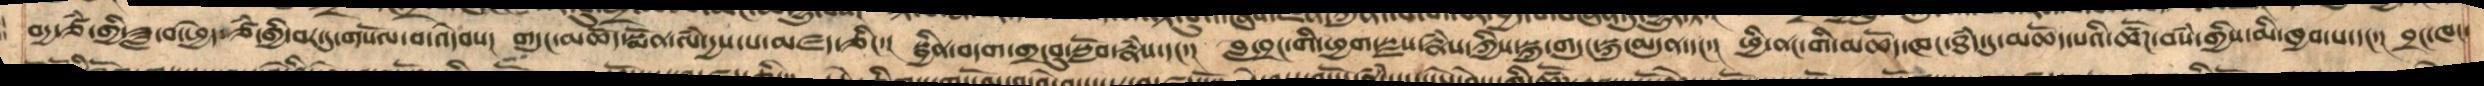བདྱ་ཙཾ་གྱི་ཟླ་བ་ཕྱེད་ཙཾ་གྱི་བར་དུ་གསོལ་བ་འདེབས།  གདུང་མཆོད་སྨོན་ལཾ་དྱས་པ་མཛད་ཅིང་། སྦྱིན་བདག་གྲ་བུ་སློབ་རྣཾས་དང་།  བླ་བྲང་གི་ཕྱག་སྫས་རྣཾས་ཀྱིས་སྐུ་གདུང་སྐུ་མདུན་དང་། ཕྱི་ནང་གི་མཆོད་ཁང་ཐཾད་དུ་མཆོད་པའི་ཚོཌ་བསཾ་གྱིས་མི་ཁྱབ་པ་དང་། བྲང་ཁང་
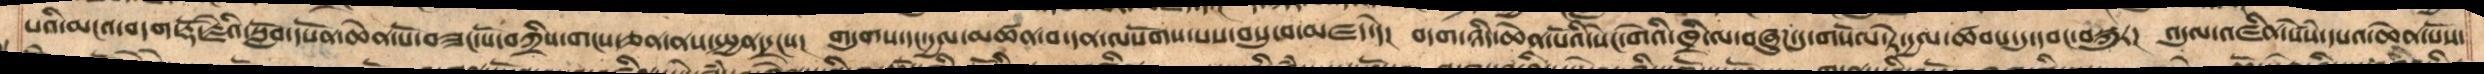པའི་མངའ་བདག་རྡོ་རྗེ་སློབ་དཔོན་ཆེན་པོ་བཟང་པོ་བཀྲིས་གངས་ཅན་ནས་སྤྱན་དྲངས།  གདུགས་དང་དྱལ་མཚན་དང་བ་དན་ལསོཌ་པས་བསུ་བ་མཛད་དེ།  བདག་ཉིད་ཆེན་པོའི་སེང་གེའི་ཁྲི་ལ་བཞུཌ་དུ་གསོལ་ཏེ་དྱལ་ཚབས་དུ་དབང་བསྐུར།  འདུལ་འཛིན་སེཾས་དཔའ་ཆེན་པོས་
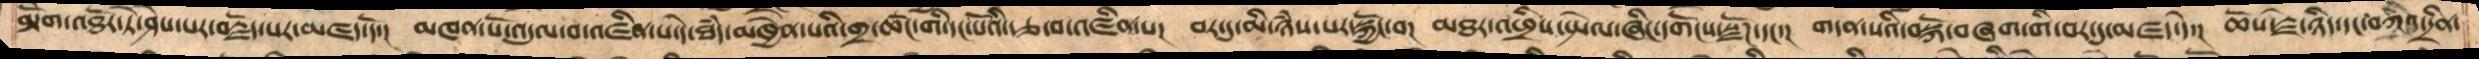མྟོེག་འཐོར་ཏེ་ཤེས་པར་བརྗོད་པར་མཛད་དོ།  མཁན་པོ་འདུལ་བ་འཛིན་པ་དེ་ཐཾད་མཁྱེན་པའི་གྲ་ཚང་གི་དང་པོའི་རྩ་བ་འཛིན་པ།  བར་དུ་མི་ཉཾས་པར་སྐྱོང་བ།  མཐར་འཕྲིས་སྤེལ་ཞིང་དགོངས་སྫོཌ་དང་།  གདན་སའི་བསྐོ་བཞག་གི་བར་དུ་མཛད་དེ།  ཆོས་རྗེ་ཉིད་དང་བཀའ་དྲིན་
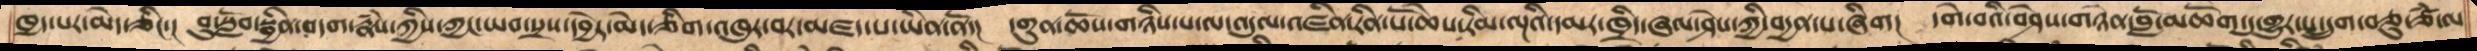ཁྱད་པར་མེད་ཅིང་།  བུ་སློབ་སྦྱིན་བདག་རྣཾས་ཀྱིས་ཀྱང་ཡབ་སྲས་དབྱེར་མེད་ཅིག་འཁུར་བར་མཛད་པ་ཡིན་ནོ།  དགུན་ཆོས་གཉིས་པ་ལ་འདུལ་འཛིན་རིན་པོ་ཆེས་རིམ་ལྔའི་དམར་ཁྲིད་ཞལ་ཤེས་ཀྱི་བདྱན་པ་ཞིག།   དགེ་བའི་བཤེས་གཉེན་བློ་མཆོག་དུ་གྱུར་པ་དྲུག་བཅུ་ཙཾ་ལ
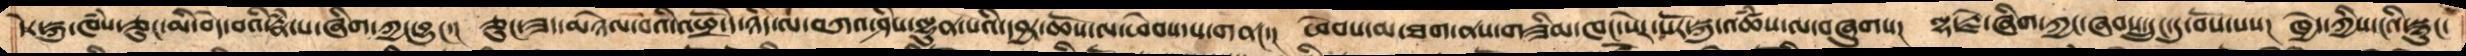དེར་སྐུ་ཁཾས་ཅུང་མི་བདེ་བའི་རྣཾ་པ་ཞིག་ཀྱང་བྱུང་།  ཅུང་ཟད་མཉེལ་བའི་འཕྲོ་དེ་ཉིད་ལ་བཀའ་ཤིས་ལྷུན་པོའི་དབྱར་ཆོས་ལ་ཕེབས་པ་གནང་།  ཕེབས་མ་ཐག་ནས་གཟིམ་ཁང་སེར་པོར་སྐུ་འཚཾས་ལ་བཞུགས།  ལྷ་རྗེ་ཞིག་ཀྱང་ཞབས་དྲུང་དུ་བོས་པས།  ཁྱེད་ཀྱིས་ངའི་སྙུང་
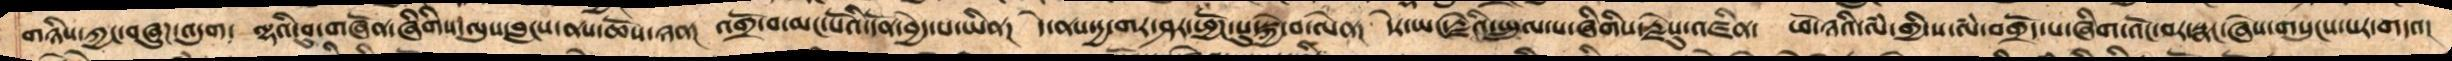གཉིས་ཀྱང་བཞུཌ་འདུག  ལྷའི་བུ་གཞོན་ཞིགིས་ལུས་བླངས་ནས་ཆོས་ཉན།  འགྲོ་བ་མང་པོའི་དོན་བྱེད་པ་ཡིན།  དེ་ནས་དྱ་གར་ཤར་ཕྱོཌ་སུ་སྐྱེ་བ་ལེན།  དེར་ཡང་རྗེའི་སྤྲུལ་པ་ཞིགིས་རྗེསུ་འཛིན།  ཕོ་ཉའི་ལཾ་གྱི་ས་ལཾ་བགྲོད་པ་ཞིག་འོང་བར་སྣང་ཞེས་གསུངས་པར་གདའ།
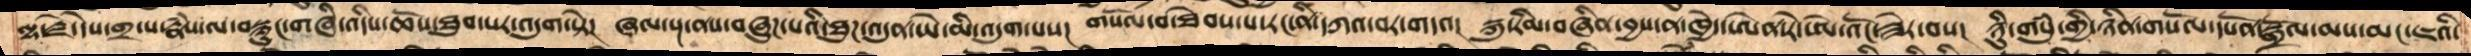ལྷ་རྗེ་དེས་གྲ་པ་རྣཾས་ལ་བསྙུང་གཞི་འདིས་ཆོས་ཐུབ་པར་འདུག་སྟེ།  ཞལ་སྔ་ནས་བཞུཌ་པའི་ཐུཌ་འདུན་ཡེ་མི་འདུག་པས།  གསོལ་བ་ཐེབས་པ་རང་ནི་དཀའ་བར་གདའ།  སྐུ་རིམ་བཞིན་བྱས་ན་ཁྱེད་ཨེན་རེ་ཨེ་འོང་ཟེར་བས།  ཉིུ་གསུཾ་ཉིན་གསོལ་དཔོན་སྒྲོལ་མས་མང་ཇའི་
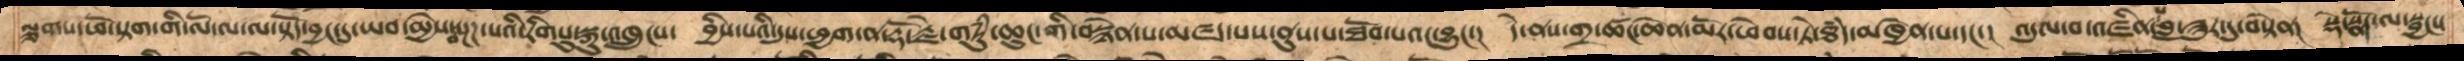ལྕགས་ཕོ་སྟག་གི་ལོ་ལ་ལ་སྟོད་བྱང་དུ་ཡབ་མྱེས་བསྔཌ་པའི་རིགསུ་སྐུ་འཁྲུངས་ བྱིས་པའི་དུས་ཕྱག་ན་རྡོ་རྗེ་གཏུཾ་ཆུང་གི་བསྙེན་པ་མཛད་པས་ནུས་པ་ཐོན་པའང་བྱུང་། དེ་ནས་གྲ་ཚང་ཆེན་མོར་ཕེབས་ཏེ་ཐཾད་མཁྱེན་པ་དང་། འདུལ་བ་འཛིན་པ་བླ་ཟུར་དུ་བསྟེན། སྡེ་སྣོད་ལ་སྦྱངས་
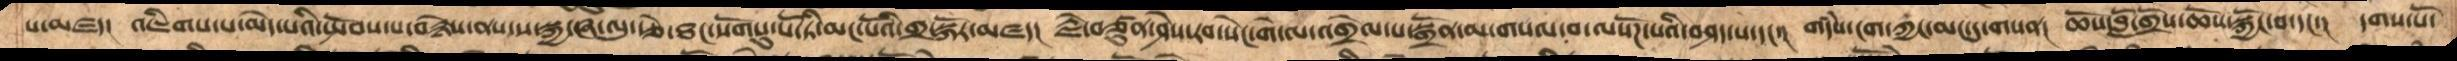པ་མཛད།  འཇིགས་པ་མེད་པའི་སྤོབས་པ་བརྙེས་ནས་ས་སྐྱ་ཞ་ལུ་རྩེ་ཐང་སོགསུ་པོ་ཏི་མང་པོའི་གྲ་སྐོར་མཛད།  རྗེ་བཙུན་ཤེས་རབ་སེང་གེ་ལ་འགྲེལ་པ་སྒྲོན་མ་གསལ་བ་ལསོཌ་པའི་བཤད་པ་དང་།  གདཾས་ངག་ཀྱང་མང་དུ་གསན།  ཆོས་བློ་གྲོས་ཆོས་སྐྱོང་བ་དང་།  དགས་པོ་
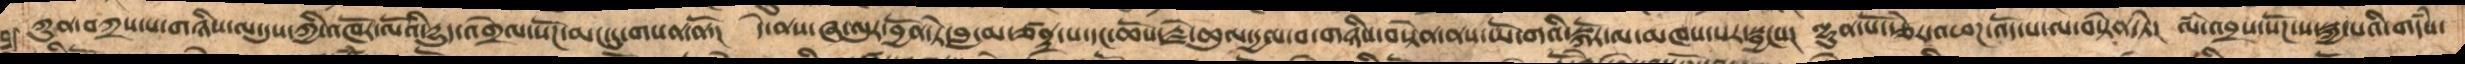ཀུན་བཀྲས་པ་གཉིས་ལ་དུས་ཀྱི་འཁོར་ལོའི་དྱུད་འགྲེལ་སོཌ་པ་མང་དུ་གསན་ནོ།  དེ་ནས་ཞ་ལུར་བྱོན་ཏེ་བླ་མ་ཙནྡྲ་པ་དང་ཆོས་རྗེ་ཚུལ་དྱལ་བ་གཉིས་བསྟེན་ནས་ཡོ་གའི་སྐོར་ལ་མཁས་པར་སྦྱངས། ལྷུན་པོ་རྩེར་འཕཌ་འོད་པ་ལ་བསྟེན་ཏེ། ལཾ་འབྲས་སོཌ་ས་སྐྱ་པའི་གདཾས
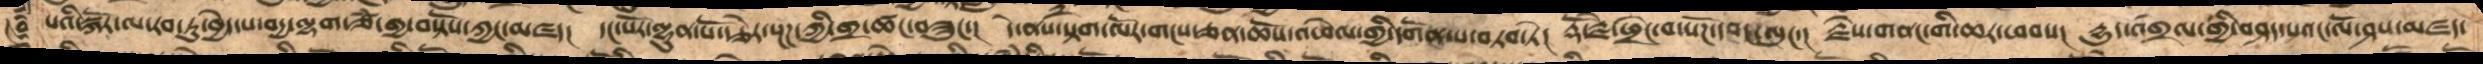པའི་སྐོར་ལ་རབ་ཏུ་བྱེད་པ་བདྱ་ལྷག་ཙཾ་གྱ་བསྟོས་ཀྱང་མཛད། དང་པོར་ལྷུན་པོ་རྩེར་སྔཌ་ཀྱི་གྲ་ཚང་བཟུང་།  དེ་ནས་སྟག་ལོར་གངས་ཅན་ཆོས་འཕེལ་གྱི་དགོན་པ་བཏབ་ཏེ།  རྡོ་རྗེ་ཕྲེང་བ་སོཌ་དབང་ལུང་། རྗེས་གནང་གི་ཆར་ཕབས། དྱུད་འགྲེལ་གྱི་བཤད་པའང་ལོ་ཤས་མཛད་
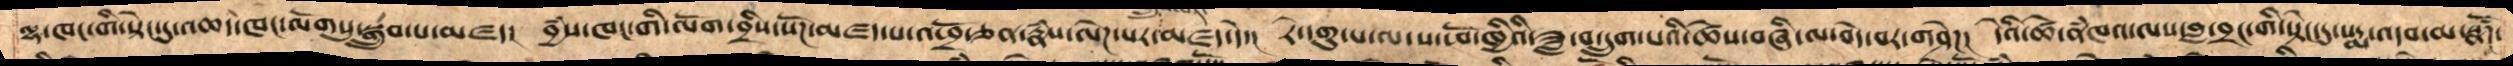ལྷ་ཁང་གི་སྟེང་དུ་འཆད་ཁང་ལོགསུ་སྒྲུབ་པ་མཛད།  བྱཾས་ཁང་གི་ལོག་བྲིས་སོཌ་མཛད་པ་འཕྲོ་ཅན་རྣཾས་ལེཌ་པར་གྲུབ་པར་མཛད་དེ།  རེ་དགུ་པ་ལ་ས་ཕོ་ཁྱིའི་ཟླ་བ་དྲུག་པའི་ཚེས་བཞི་ལ་བདེ་བར་གཤེཌ།  དེའི་ཚེ་ནཾཁའ་ལས་བླ་བྲང་གི་སྟེང་དུ་པདྨ་འདབ་མ་སྣཚོཌ་
